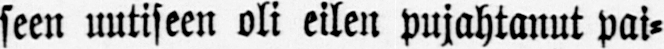seen uutiseen oli eilen pujahtanut pai-
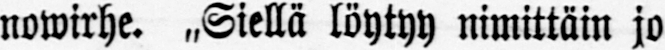nowirhe. „Siellä löytyy nimittäin jo
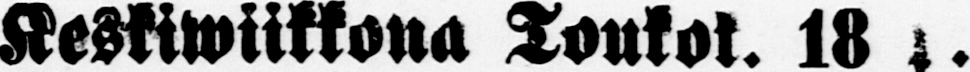Keskiwiikkona Toukot. 18.
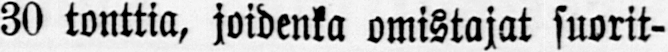30 tonttia, joidenka omistajat suorit-
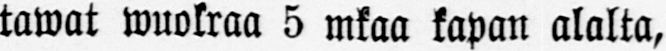tawat wuokraa 5 mkaa kapan alalta,
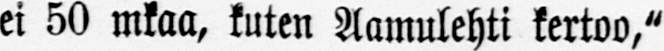ei 50 mkaa, kuten Aamulehti kertoo,"
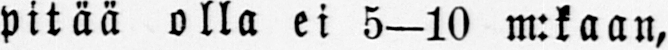pitää olla ei 5—10 m:kaan,
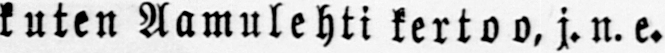kuten Aamulehti kertoo, j. n.e.
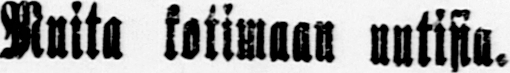Muita kotimaan uutisia.
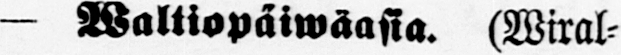— Waltiopäiwäasia. (Wiral-
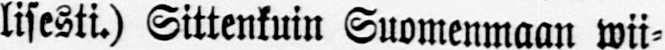lisesti.) Sittenkuin Suomenmaan wii-
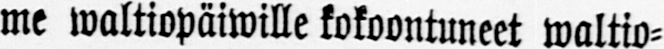me waltiopäiwille kokoontuneet waltio-
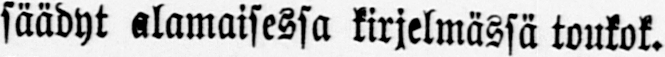säädyt alamaisessa kirjelmässä toukok.
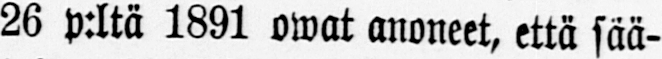26 p:ltä 1891 owat anoneet, että sää-
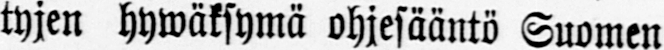tyjen hywäksymä ohjesääntö Suomen
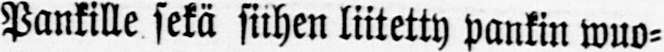Pankille sekä siihen liitetty pankin wuo-
